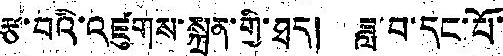རྩ་བའི་འཛུགས་སྐྲུན་གྱི་ཐད། ཟླ་བ་དང་པོ་
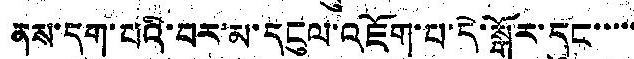ནས་དགུ་པའི་བར་མ་དངུལ་འཇོག་པ་དེ་སྒོར་དུང་་་་་
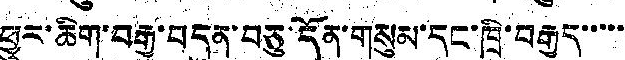ཕྱུར་ཆིག་བརྒྱ་བདུན་བཅུ་དོན་གསུམ་དང་ཁྲི་བརྒྱད་་་་་
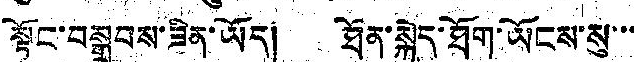སྟོང་བསྒྲུབས་ཟིན་ཡོད། ཐོན་སྐྱེད་ཐོག་ཡོངས་སུ་་་
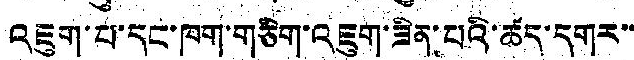འཇུག་པ་དང་ཁག་གཅིག་འཇུག་ཟིན་པའི་ཚད་དགར་་
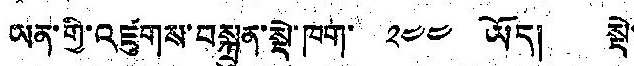ཡན་གྱི་འཛུགས་བསྐྲུན་སྡེ་ཁག་ ༢༤༤ ཡོད། སྡེ་
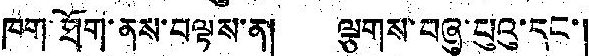ཁག་ཐོག་ནས་བལྟས་ན། ལྕགས་བཞུ་པུའུ་དང་།
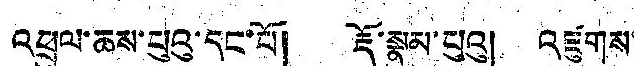འཕྲུལ་ཆས་པུའུ་དང་པོ། རྡོ་སྣུམ་པུའུ། འཛུགས་
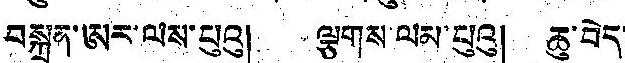བསྐྲུན་ཨར་ལས་པུའུ། ལྕགས་ལམ་པུའུ། ཆུ་བེད་
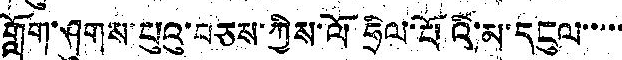གློག་ཤུགས་པུའུ་བཅས་ཀྱིས་ལོ་ཧྲིལ་པོའི་མ་དངུལ་་་་་
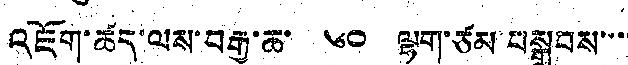འཇོག་ཚད་ལས་བརྒྱ་ཆ་ ༦༠ ལྷག་ཙམ བསྒྲུབས་་་་
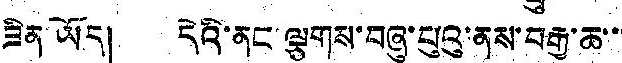ཟིན་ཡོད། དེའི་ནང ལྕགས་བཞུ་པུའུ་ནས་བརྒྱ་ཆ་་་
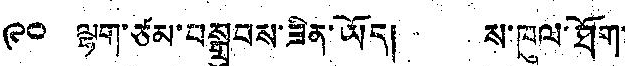༩༠ ལྷག་ཙམ་བསྒྲུབས་ཟིན་ཡོད། ས་ཁུལ་ཐོག་
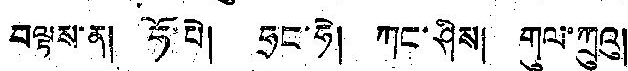བལྟས་ན། ཧོ་པེ། ཧྲང་ཧེ། ཀང་ཤིས། གུལ་ཀྲུའུ།
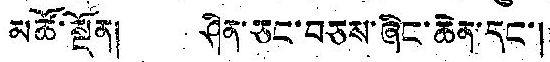མཚོ་སྔོན། ཤིན་ཅང་བཅས་ཞིང་ཆེན་དང་།
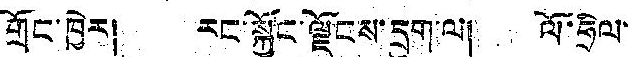གྲོང་ཁྱེར། རང་སྐྱོང་ལྗོངས་དྲུག་ལ། ལོ་ཧྲིལ་
